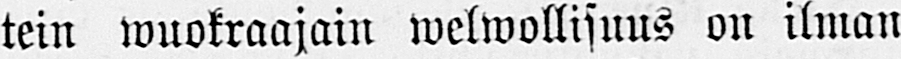tein wuokraajain welwollisuus on ilman
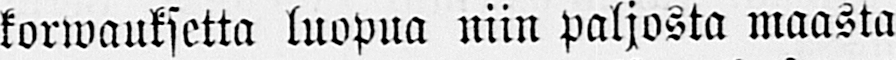korwauksetta luopua niin paljosta maasta
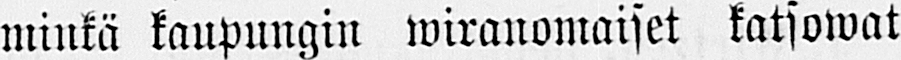minkä kaupungin wiranomaiset katsowat
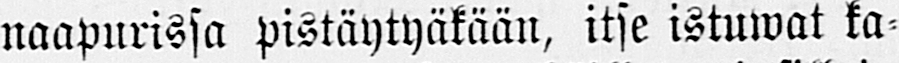naapurissa pistäytyäkään, itse istuwat ka-
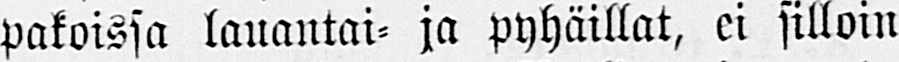pakoissa lauantai- ja pyhäillat, ei silloin
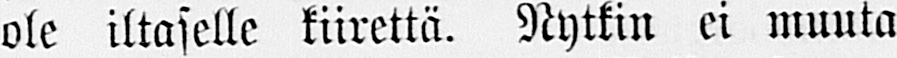ole iltaselle kiirettä. Nytkin ei muuta
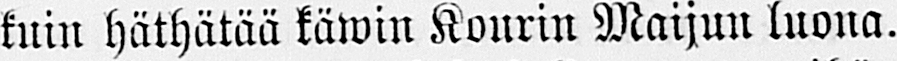kuin häthätää käwin Kourin Maijun luona.
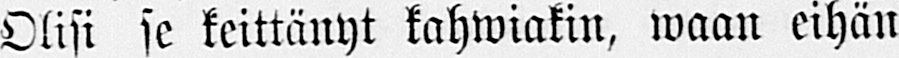Olisi se keittänyt kahwiakin, waan eihän
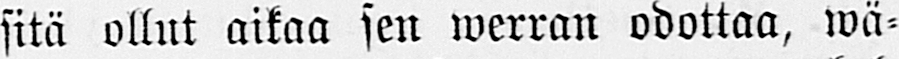sitä ollut aikaa sen werran odottaa, wä-
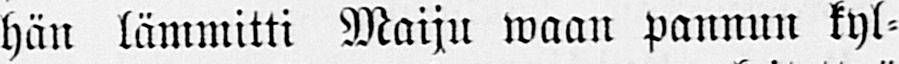hän lämmitti Maiju waan pannun kyl-
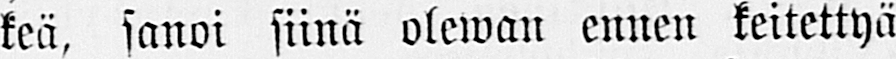keä, sanoi siinä olewan ennen keitettyä
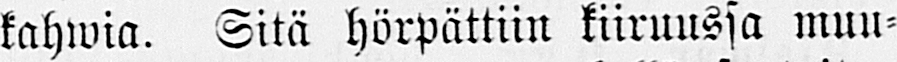kahwia. Sitä hörpättiin kiiruussa muu-
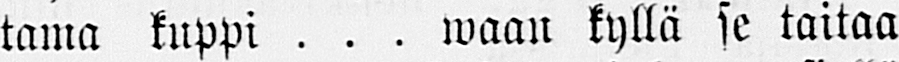tama kuppi . . . waan kyllä se taitaa
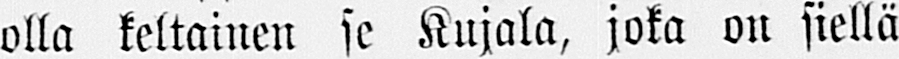olla keltainen se Kujala, joka on siellä
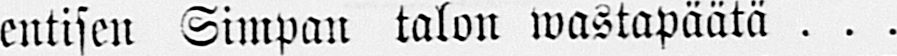entisen Simpan talon wastapäätä . . .
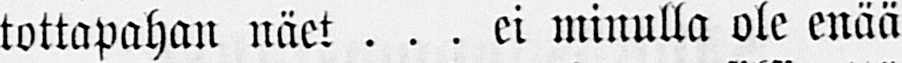tottapahan näet ... ei minulla ole enää
